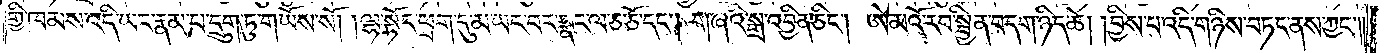གྱི་ཁམས་འདི་ཡང་རྣམ་པ་དྲུག་ཏུ་གཡོས་སོ། །ལྷ་སྟོང་ཕྲག་དུ་མ་ཡང་བར་སྣང་ལ་ཅ་ཅོ་དང༌། གཞའི་སྒྲ་འབྱིན་ཅིང༌། ཨེ་མའོ་རབ་སྦྱིན་བདག་ཉིད་ཆེ། །བྱིས་པ་འདི་གཉིས་བཏང་ནས་ཀྱང༌༎
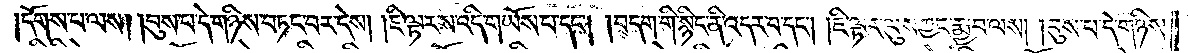།དོགས་པ་ལས། །བུས་པ་དེ་གཉིས་བཏང་བར་དེས། །ཇི་ལྟར་ས་འདི་གཡོས་པ་དང༌། །བདག་གི་སྙིང་ནི་འདར་བ་དང༌། །ཇི་ལྟར་ལུས་ཀྱང་རྨྱ་བ་ལས། །བུས་པ་དེ་གཉིས་
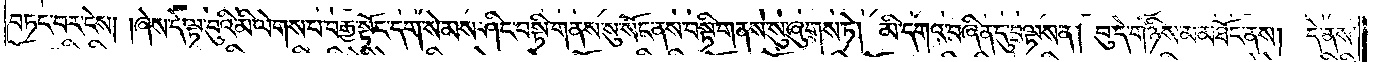བཏང་བར་ངེས། །ཞེས་དེ་ལྟ་བུའི་མི་ལེགས་པ་བརྒྱ་སྟོང་དག་སེམས་ཤིང་བསྟི་གནས་སུ་སོང་ནས་བསྟི་གནས་སུ་ཞུགས་ཏེ། མི་དགའ་བཞིན་དུ་བལྟས་ན། བུ་དེ་གཉིས་མ་མཐོང་ནས། དེ་ནས་
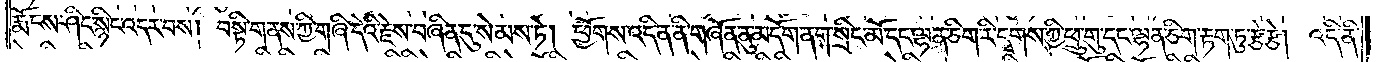རྨོངས་ཤིང་སྙིང་འདར་བས། བསྟི་གནས་ཀྱི་གཞི་དེའི་རྗེས་བཞིན་དུ་སེམས་ཏེ། ཕྱོགས་འདི་ན་ནི་གཞོན་ནུ་མདོག་ནག་སྲིང་མོ་དང་ལྷན་ཅིག་རི་དྭགས་ཀྱི་ཕྲུ་གུ་དང་ལྷན་ཅིག་རྟག་ཏུ་རྩེ་རྩེ། འདི་ནི་
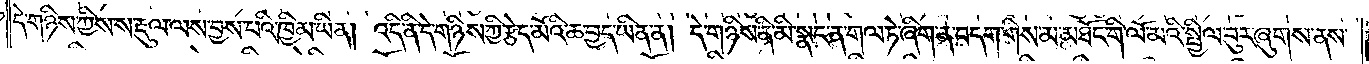དེ་གཉིས་ཀྱིས་ས་རྡུལ་ལས་བྱས་པའི་ཁྱིམ་ཡིན། འདི་ནི་དེ་གཉིས་ཀྱི་རྩེད་མོའི་ཆ་བྱད་ཡིན་ན། དེ་གཉིས་ནི་མི་སྣང་ན་གལ་ཏེ་ཞིག་ན་བདག་གིས་མ་མཐོང་གི་ལོ་མའི་སྤྱིལ་བུར་ཞུགས་ནས་
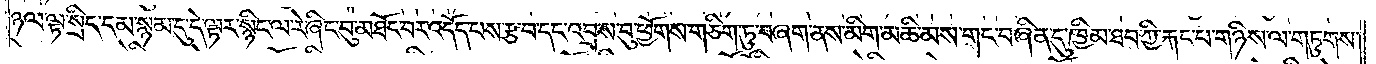ཉལ་ལྟ་སྲིད་དམ་སྙམ་དུ་དེ་ལྟར་སྙིང་ལ་རེ་ཞིང་བུ་མཐོང་བར་འདོད་པས་རྩ་བ་དང་འབྲས་བུ་ཕྱོགས་གཅིག་ཏུ་བཞག་ནས་མིག་མཆི་མས་གང་བཞིན་དུ་ཁྱིམ་ཐབ་ཀྱི་རྐང་པ་གཉིས་ལ་གཏུགས་
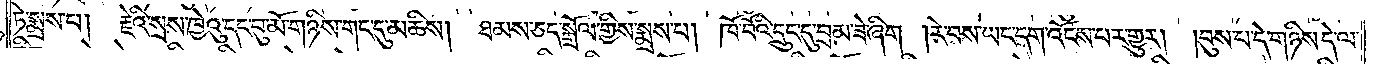ཏེ་སྨྲས་པ། རྗེའི་སྲས་ཁྱེའུ་དང་བུ་མོ་གཉིས་གང་དུ་མཆིས། ཐམས་ཅད་སྒྲོལ་གྱིས་སྨྲས་པ། ཁོ་བོའི་དྲུང་དུ་བྲམ་ཟེ་ཞིག །རེ་བས་ཡང་དག་འོངས་པར་གྱུར། །བུས་པ་དེ་གཉིས་དེ་ལ་
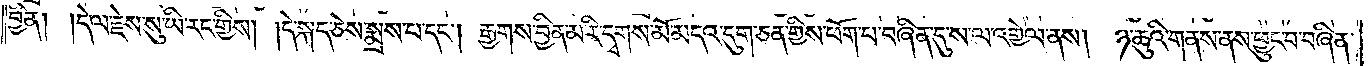བྱིན། །དེ་ལ་རྗེས་སུ་ཡི་རང་གྱིས། །དེ་སྐད་ཅེས་སྨྲས་པ་དང༌། རྒྱགས་བྱིན་མ་རི་དྭགས་མོ་མདའ་དུག་ཅན་གྱིས་ཕོག་པ་བཞིན་དུ་ས་ལ་འགྱེལ་ནས། ཉ་ཆུའི་གནས་ནས་ཕྱུང་བ་བཞིན་
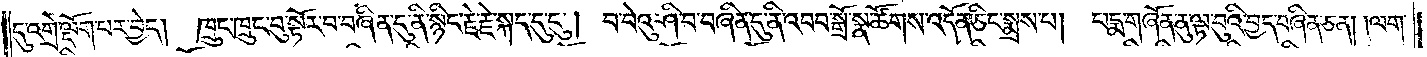དུ་འགྲེ་ལྡོག་པར་བྱེད། ཁྲུང་ཁྲུང་བུ་སྟོར་བ་བཞིན་དུ་ནི་སྙིང་རྗེ་རྗེ་སྐད་དུ་དུ། བ་བེའུ་ཤི་བ་བཞིན་དུ་ནི་འབབ་སྒྲོ་སྣ་ཚོགས་འདོན་ཅིང་སྨྲས་པ། པདྨ་གཞོན་ནུ་ལྟ་བུའི་བྱད་བཞིན་ཅན། །ལག་
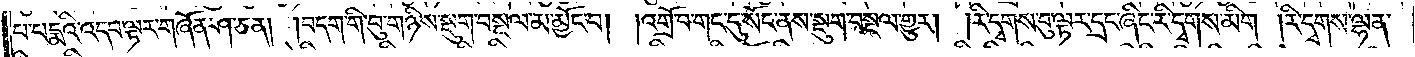པ་པདྨའི་འདབ་ལྟར་གཞོན་ཤ་ཅན། །བདག་གི་བུ་གཉིས་སྡུག་བསྔལ་མ་མྱོང་བ། །འགྲོ་བ་གང་དུ་སོང་ནས་སྡུག་བསྔལ་གྱུར། །རི་དྭགས་བུ་ལྟར་དྲང་ཞིང་རི་དྭགས་མིག །རི་དྭགས་ལྷན་
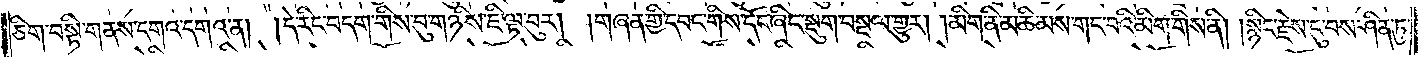ཅིག་བསྟི་གནས་དགའ་དགའ་ན། །དེ་རིང་བདག་གིས་བུ་གཉིས་ཇི་ལྟ་བུར། །གཞན་གྱི་དབང་གིས་དོང་ཞིང་སྡུག་བསྔལ་གྱུར། །མིག་ནི་མཆིམས་གང་བའི་མིག་གིས་ནི། །སྙིང་རྗེས་དུ་བས་ཤིན་ཏུ་
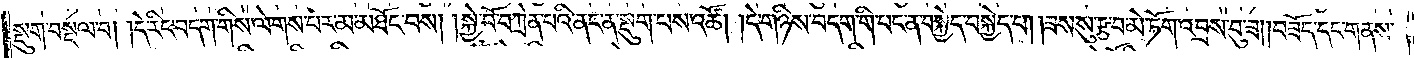སྡུག་བསྔལ་བ། །དེ་རིང་བདག་གིས་ལེགས་པར་མ་མཐོང་བས། །སྐྱེ་བོ་བཀྲེན་པའི་ནང་ན་སྡུག་པས་འཚོ། །དེ་གཉིས་བདག་གི་པང་ན་བསྐྱེད་བསྐྱེད་པ། །ཟས་སུ་རྩ་བ་མེ་ཏོག་འབྲས་བུ་ཟ། །བཟོད་དང་གནས་
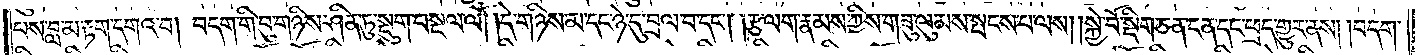པས་བླ་མ་རྟག་དགའ་བ། བདག་གི་བུ་གཉིས་ཤིན་ཏུ་སྡུག་བསྔལ་ལོ། །དེ་གཉིས་མ་དང་ཉེ་དུ་བྲལ་བ་དང༌། །རྩ་ལག་རྣམས་ཀྱིས་གཟུ་ལུམས་སྤངས་པ་ལས། །སྐྱེ་བོ་སྡིག་ཅན་ངན་དང་ཕྲད་གྱུར་ནས། །བདག་
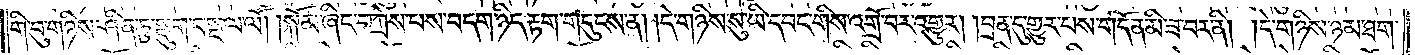གི་བུ་གཉིས་ཤིན་ཏུ་སྡུག་བསྔལ་ལོ། །སྐོམ་ཞིང་བཀྲེས་པས་བདག་ཉིད་རྟག་གདུངས་ན། །དེ་གཉིས་སུ་ཡི་དབང་གིས་འགྲོ་བར་འགྱུར། །བྲན་དུ་གྱུར་པས་གདོན་མི་ཟ་བར་ནི། །དེ་གཉིས་ཉམ་ཐག་
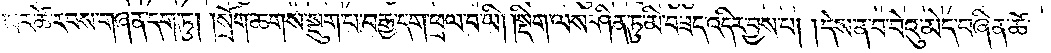སྡུག་བསྔལ་ཡོངས་སུ་གཟིར། །བདག་གིས་ངེས་པར་ཚེ་རབས་གཞན་དག་ཏུ། །སྲོག་ཆགས་སྡུག་པ་བརྒྱ་དག་ཕྲལ་བ་ཡི། །སྡིག་ལས་ཤིན་ཏུ་མི་བཟད་འདིར་བྱས་པ། །དེས་ན་བ་བེའུ་མེད་བཞིན་ཆོ་
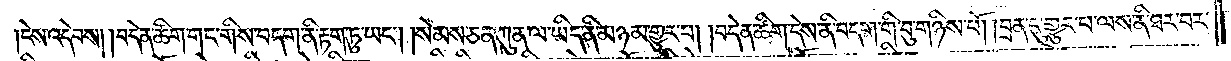ངེས་འདེབས། །བདེན་ཚིག་གང་གིས་བདག་ནི་རྟག་ཏུ་ཡང༌། །སེམས་ཅན་ཀུན་ལ་ཡིད་ནི་མཉམ་གྱུར་པ། །བདེན་ཚིག་དེས་ནི་བདག་གི་བུ་གཉིས་པོ། །བྲན་དུ་གྱུར་པ་ལས་ནི་ཐར་བར་
